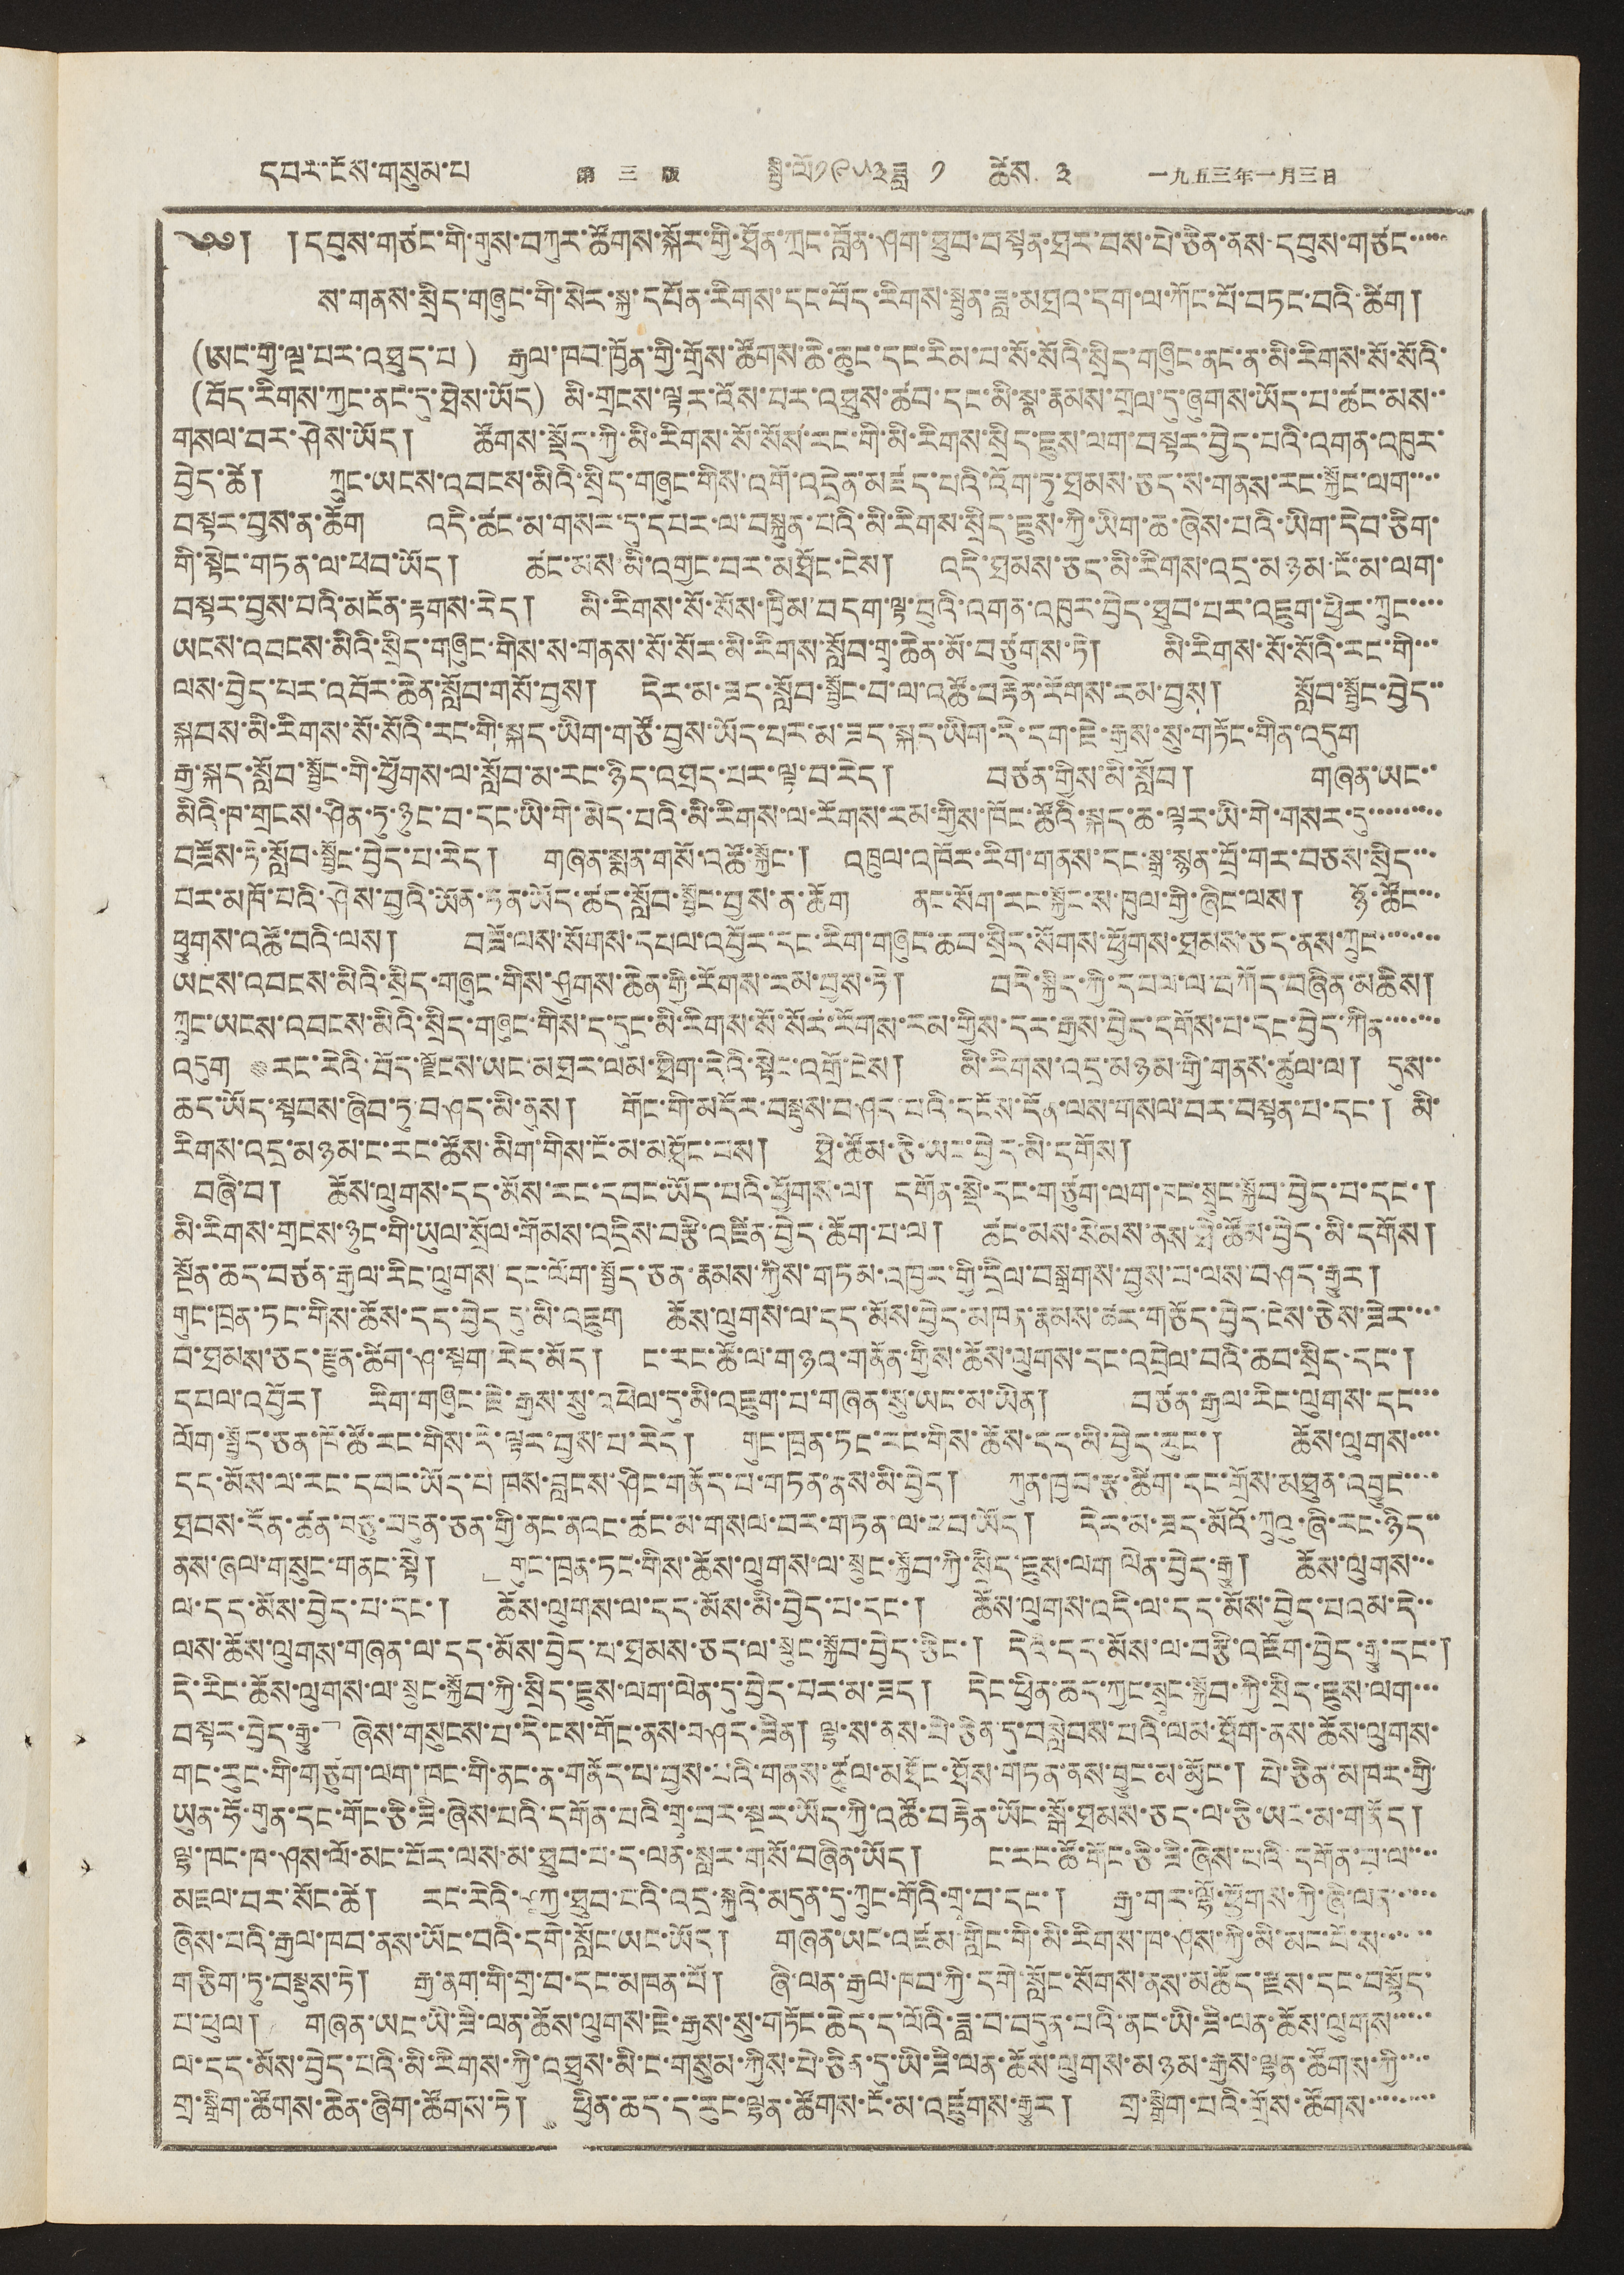དཔར་ངོས་གསུམ་པ 第 三 版 སྤྱི་ལོ༡༩༥༣ཟླ ༡ ཚེས ༣ 一九五三年一月三日
༄༅། །དབུས་གཙང་གི་གུས་བཀུར་ཚོགས་སྐོར་གྱི་ཐོན་ཀྲང་བློན་ཤག་ཐུབ་བསྟན་ཐར་བས་པེ་ཅིན་ནས་དབུས་གཙང་་་་་
ས་གནས་སྲིད་གཞུང་གི་སེར་སྐྱ་དཔོན་རིགས་དང་བོད་རིགས་སྤུན་ཟླ་མཐའ་དག་ལ་ཀོང་པོ་བཏང་བའི་ཚིག།
(ཨང་གྱི་ལྔ་པར་འཐུད་པ) རྒྱལ་ཁབ་ཁྱོན་གྱི་གྲོས་ཚོགས་ཆེ་ཆུང་དང་རིམ་པ་སོ་སོའི་སྲིད་གཞུང་ནང་ན་མི་རིགས་སོ་སོའི་
(བོད་རིགས་ཀྱང་ནང་དུ་ཐེས་ཡོད) མི་གྲངས་ལྟར་འོས་བར་འཐུས་ཚབ་དང་མི་སྣ་རྣམས་གྲལ་དུ་ཞུགས་ཡོད་པ་ཚང་མས་་
གསལ་བར་ཤེས་ཡོད། ཚོགས་སྡོད་གྱི་མི་རིགས་སོ་སོས་རང་གི་མི་རིགས་སྲིད་ཇུས་ལག་བསྟར་བྱེད་པའི་འགན་འཁུར་
བྱེད་ཚེ། ཀྲུང་ཡངས་འབངས་མིའི་སྲིད་གཞུང་གིས་འགོ་འདྲེན་མཛད་པའི་འོག་ཏུ་ཐམས་ཅད་ས་གནས་རང་སྐྱོང་ལག་་་་
བསྟར་བྱས་ན་ཆོག འདི་ཚང་མ་གསར་དུ་དཔར་ལ་བསྐྲུན་པའི་མི་རིགས་སྲིད་ཇུས་ཀྱི་ཡིག་ཆ་ཞེས་པའི་ཡིག་དེབ་ཅིག་
གི་སྟེང་གཏན་ལ་ཕབ་ཡོད། ཚང་མས་མི་འགྱང་བར་མཐོང་ངེས། འདི་ཐམས་ཅད་མི་རིགས་འདྲ་མཉམ་ངོ་མ་ལག་
བསྟར་བྱས་པའི་མངོན་རྟགས་རེད། མི་རིགས་སོ་སོས་ཁྱིམ་བདག་ལྟ་བུའི་འགན་འཁུར་བྱེད་ཐུབ་པར་འཇུག་ཕྱིར་ཀྲུང་་་་
ཡངས་འབངས་མིའི་སྲིད་གཞུང་གིས་ས་གནས་སོ་སོར་མི་རིགས་སློབ་གྲྭ་ཆེན་མོ་བཙུགས་ཏེ། མི་རིགས་སོ་སོའི་རང་གི་་་
ལས་བྱེད་པར་འབོར་ཆེན་སློབ་གསོ་བྱས། དེར་མ་ཟད་སློབ་སྦྱོང་བ་ལ་འཚོ་བརྟེན་རོགས་རམ་བྱས། སློབ་སྦྱོང་བྱེད་་
སྐབས་མི་རིགས་སོ་སོའི་རང་གི་སྐད་ཡིག་གཙོ་བྱས་ཡོད་པར་མ་ཟད་སྐད་ཡིག་དེ་དག་ཇེ་རྒྱས་སུ་གཏོང་གིན་འདུག
རྒྱ་སྐད་སློབ་སྦྱོང་གི་ཕྱོགས་ལ་སློབ་མ་རང་ཉིད་འཐད་པར་ལྟ་བ་རེད། བཙན་གྱིས་མི་སློབ། གཞན་ཡང་་
མིའི་ཁ་གྲངས་ཤིན་ཏུ་ཉུང་བ་དང་ཡི་གེ་མེད་པའི་མི་རིགས་ལ་རོགས་རམ་གྱིས་ཁོང་ཚོའི་སྐད་ཆ་ལྟར་ཡི་གེ་གསར་དུ་་་་་་་་་
བཟོས་ཏེ་སློབ་སྦྱོང་བྱེད་པ་རེད། གཞན་སྨན་གསོ་འཚོ་སྐྱོང་། འཁྲུལ་འཁོར་རིག་གནས་དང་སྒྲ་སྙན་བྲོ་གར་བཅས་སྲིད་་་
པར་མཁོ་པའི་ཤེས་བྱའི་ཡོན་ཏན་ཡོད་ཚད་སློབ་སྦྱོང་བྱས་ན་ཆོག ནང་སོག་རང་སྐྱོང་ས་ཁུལ་གྱི་ཞིང་ལས། ཉོ་ཚོང་་་
ཕྱུགས་འཚོ་བའི་ལས། བཟོ་ལས་སོགས་དཔལ་འབྱོར་དང་རིག་གཞུང་ཆབ་སྲིད་སོགས་ཕྱོགས་ཐམས་ཅད་ནས་ཀྲུང་་་་་་་་
ཡངས་འབངས་མིའི་སྲིད་གཞུང་གིས་ཤུགས་ཆེན་གྱི་རོགས་རམ་བྱས་ཏེ། བདེ་སྐྱིད་ཀྱི་དཔལ་ལ་བཀོད་བཞིན་མཆིས།
ཀྲུང་ཡངས་འབངས་མིའི་སྲིད་གཞུང་གིས་ད་དུང་མི་རིགས་སོ་སོར་རོགས་རམ་གྱིས་དར་རྒྱས་བྱེད་དགོས་པ་དང་བྱེད་ཀིན་་་་་་་
འདུག རང་རེའི་བོད་ལྗོངས་ཡང་མཐར་ལམ་ཐིག་དེའི་སྟེང་འགྲོ་ངེས། མི་རིགས་འདྲ་མཉམ་གྱི་གནས་ཚུལ་ལ། དུས་་
ཆང་ཡོད་སྟབས་ཞིབ་ཏུ་བཤད་མི་ནུས། གོང་གི་མདོར་བསྡུས་བཤད་པའི་དངོས་དོན་ལས་གསལ་བར་བསྟན་པ་དང་། མི
རིགས་འདྲ་མཉམ་ང་རང་ཚོས་མིག་གིས་ངོ་མ་མཐོང་པས། ཐེ་ཚོམ་ཅི་ཡང་བྱེད་མི་དགོས།
བཞི་བ། ཆོས་ལུགས་དད་མོས་རང་དབང་ཡོད་པའི་ཕྱོགས་ལ། དགོན་སྡེ་དང་གཙུག་ལག་ཁང་སྲུང་སྐྱོབ་བྱེད་པ་དང་།
མི་རིགས་གྲངས་ཉུང་གི་ཡུལ་སྲོལ་གོམས་འདྲིས་བརྩི་འཛིན་བྱེད་ཆོག་པ་ལ། ཚང་མས་སེམས་ནས་ཐེ་ཚོས་བྱེད་མི་དགོས།
སྔོན་ཆད་བཙན་རྒྱལ་རིང་ལུགས་དང་ལོག་སྤྱོད་ཅན་རྣམས་ཀྱིས་གཏམ་འཁྱར་གྱི་དྲིལ་བསྒྲགས་བྱས་པ་ལས་བཤད་རྒྱུར།
གུང་ཁྲན་ཏང་གིས་ཆོས་དད་བྱེད དུ་མི་འཇུག ཆོས་ལུགས་ལ་དད་མོས་བྱེད་མཁན་རྣམས་ཚར་གཅོད་བྱེད་ངེས་ཅེས་ཟེར་་་་
བ་ཐམས་ཅད་རྫུན་ཚིག་ཤ་སྟག་རེད་མོད། ང་རང་ཚོ་ལ་གཉའ་གནོན་གྱིས་ཆོས་ལུགས་དང་འབྲེལ་བའི་ཆབ་སྲིད་དང་།
དཔལ་འབྱོར། རིག་གཞུང་ཇེ་རྒྱས་སུ་འཕེལ་དུ་མི་འཇུག་པ་གཞན་སུ་ཡང་མ་ཡིན། བཙན་རྒྱལ་རིང་ལུགས་དང་་་
ལོག་སྤྱོད་ཅན་ཁོ་ཚོ་རང་གིས་དེ་ལྟར་བྱས་པ་རེད། གུང་ཁྲན་ཏང་རང་གིས་ཆོས་དད་མི་བྱེད་རུང་། ཆོས་ལུགས་་་་
དད་མོས་ལ་རང་དབང་ཡོད་པ ཁས་བླངས་ཤིང་གནོད་པ་གཏན་ནས་མི་བྱེད། ཀུན་ཁྱབ་རྩ་ཚིག་དང་གྲོས་མཐུན་འབྱུང་་་་
ཐབས་དོན་ཚན་བཅུ་བདུན་ཅན་གྱི་ནང་ནའང་ཚང་མ་གསལ་བར་གཏན་ལ་ཕབ་ཡོད། དེར་མ་ཟད་མོའོ་ཀྲུའུ་ཞི་རང་ཉིད་་
ནས་ཞལ་གསུང་གནང་སྟེ། ﹂གུང་ཁྲན་ཏང་གིས་ཆོས་ལུགས་ལ་སྲུང་སྐྱོབ་ཀྱི་སྲིད་ཇུས་ལག ལེན་བྱེད་རྒྱུ། ཆོས་ལུགས་་་
ལ་དད་མོས་བྱེད་པ་དང་། ཆོས་ལུགས་ལ་དད་མོས་མི་བྱེད་པ་དང་། ཆོས་ལུགས་འདི་ལ་དད་མོས་བྱེད་པའམ་དེ་་
ལས་ཆོས་ལུགས་གཞན་ལ་དད་མོས་བྱེད་པ་ཐམས་ཅད་ལ་སྲུང་སྐྱོབ་བྱེད་ཅིང་། དེའི་དད་མོས་ལ་བརྩི་འཇོག་བྱེད་རྒྱུ་དང་།
དེ་རིང་ཆོས་ལུགས་ལ་སྲུང་སྐྱོབ་ཀྱི་སྲིད་ཇུས་ལག་ལེན་དུ་བྱེད་པར་མ་ཟད། དེང་ཕྱིན་ཆད་ཀྱང་སྲུང་སྐྱོབ་ཀྱི་སྲིད་ཇུས་ལག་་་
བསྟར་བྱེད་རྒྱུ་﹁ ཞེས་གསུངས་པ་དེ་ངས་གོང་ནས་བཤད་ཟིན། ལྷ་ས་ནས་པེ་ཅིན་དུ་བསླེབས་པའི་ལམ་ཐོག་ནས་ཆོས་ལུགས་
གང་རུང་གི་གཙུག་ལག་ཁང་གི་ནང་ན་གནོད་པ་བྱས་པའི་གནས་ཚུལ་མཐོང་ཐོས་གཏན་ནས་བྱུང་མ་མྱོང་། པེ་ཅིན་མཁར་གྱི་
ཡུན་ཧོ་གུན་དང་གོང་ཅི་ཟི་ཞེས་པའི་དགོན་པའི་གྲྭ་བར་སྔར་ཡོད་ཀྱི་འཚོ་བརྟེན་ཡོང་སྒོ་ཐམས་ཅད་ལ་ཅི་ཡང་མ་གནོད།
ལྷ་ཁང་ཁ་ཤས་ལོ་མང་པོར་ལས་མ་ཐུབ་པ་ད་ལན་སླར་གསོ་བཞིན་ཡོད། ང་རང་ཚོ་གོང་ཅི་ཟི་ཞེས་པའི་དགོན་པ་ལ་་་་
མཇལ་བར་སོང་ཚེ། རང་རེའི་ཤཀྱ་ཐུབ་པའི་འདྲ་སྐུའི་མདུན་དུ་ཀྲུང་གོའི་གྲྭ་བ་དང་། རྒྱ་གར་ལྷོ་ཕྱོགས་ཀྱི་ཞི་ལན་་་་་་
ཞེས་པའི་རྒྱལ་ཁབ་ནས་ཡོང་བའི་དགེ་སློང་ཡང་ཡོད། གཞན་ཡང་འཛམ་གླིང་གི་མི་རིགས་ཁ་ཤས་ཀྱི་མི་མང་པོ་ས་་་་་་
གཅིག་ཏུ་བསྡུས་ཏེ། རྒྱ་ནག་གི་གྲ་བ་དང་མཁན་པོ། ཞི་ལན་རྒྱལ་ཁབ་ཀྱི་དགེ་སློང་སོགས་ནས་མཆོད་རྫས་དང་བསྟོད་
པ་ཕུལ། གཞན་ཡང་ཡི་ཟི་ལན་ཆོས་ལུགས་ཇེ་རྒྱས་སུ་གཏོང་ཆེད་ད་ལོའི་ཟླ་བ་བདུན་པའི་ནང་ཡི་ཟི་ལན་ཆོས་ལུགས་་་་་
ལ་དད་མོས་བྱེད་པའི་མི་རིགས་ཀྱི་འཐུས་མི་ང་གསུམ་ཀྱིས་པེ་ཅིན་དུ་ཡི་ཟི་ལན་ཆོས་ལུགས་མཉམ་རྒྱས་ལྷན་ཚོགས་ཀྱི་་་་
གྲ་སྒྲིག་ཚོགས་ཆེན་ཞིག་ཚོགས་ཏེ། ཕྱིན་ཆད་ད་རུང་ལྷན་ཚོགས་ངོ་མ་འཛུགས་རྒྱུར། གྲ་སྒྲིག་པའི་གྲོས་ཚོགས་་་་་་་་་
